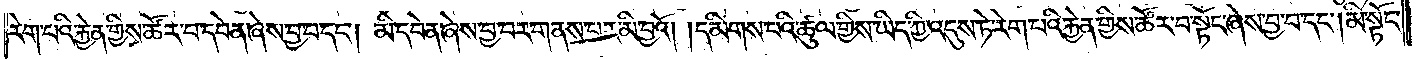རེག་པའི་རྐྱེན་གྱིས་ཚོར་བ་དབེན་ཞེས་བྱ་བ་དང༌། མི་དབེན་ཞེས་བྱ་བར་གནས་པར་མི་བྱའོ། །དམིགས་པའི་ཚུལ་གྱིས་ཡིད་ཀྱི་འདུས་ཏེ་རེག་པའི་རྐྱེན་གྱིས་ཚོར་བ་སྟོང་ཞེས་བྱ་བ་དང༌། མི་སྟོང་
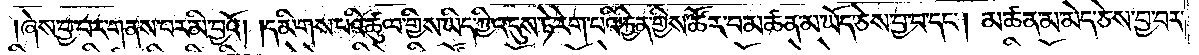ཞེས་བྱ་བར་གནས་པར་མི་བྱའོ། །དམིགས་པའི་ཚུལ་གྱིས་ཡིད་ཀྱི་འདུས་ཏེ་རེག་པའི་རྐྱེན་གྱིས་ཚོར་བ་མཚན་མ་ཡོད་ཅེས་བྱ་བ་དང༌། མཚན་མ་མེད་ཅེས་བྱ་བར་
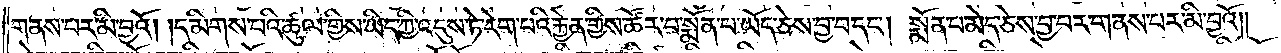གནས་པར་མི་བྱའོ། །དམིགས་པའི་ཚུལ་གྱིས་ཡིད་ཀྱི་འདུས་ཏེ་རེག་པའི་རྐྱེན་གྱིས་ཚོར་བ་སྨོན་པ་ཡོད་ཅེས་བྱ་བ་དང༌། སྨོན་པ་མེད་ཅེས་བྱ་བར་གནས་པར་མི་བྱའོ༎
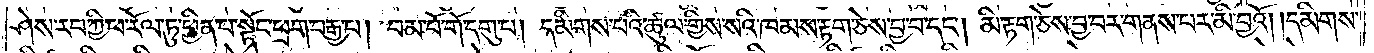ཤེས་རབ་ཀྱི་ཕ་རོལ་ཏུ་ཕྱིན་པ་སྟོང་ཕྲག་བརྒྱ་པ། །བམ་པོ་གོ་དགུ་པ། །དམིགས་པའི་ཚུལ་གྱིས་སའི་ཁམས་རྟག་ཅེས་བྱ་བ་དང༌། མི་རྟག་ཅེས་བྱ་བར་གནས་པར་མི་བྱའོ། །དམིགས་
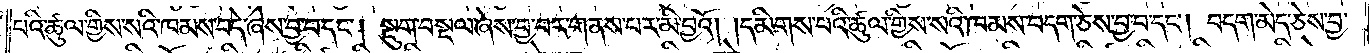པའི་ཚུལ་གྱིས་སའི་ཁམས་བདེ་ཞེས་བྱ་བ་དང༌། སྡུག་བསྔལ་ཞེས་བྱ་བར་གནས་པར་མི་བྱའོ། །དམིགས་པའི་ཚུལ་གྱིས་སའི་ཁམས་བདག་ཅེས་བྱ་བ་དང༌། བདག་མེད་ཅེས་བྱ་
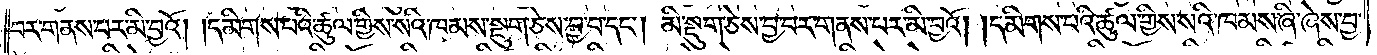བར་གནས་པར་མི་བྱའོ། །དམིགས་པའི་ཚུལ་གྱིས་སའི་ཁམས་སྡུག་ཅེས་བྱ་བ་དང༌། མི་སྡུག་ཅེས་བྱ་བར་གནས་པར་མི་བྱའོ། །དམིགས་པའི་ཚུལ་གྱིས་སའི་ཁམས་ཞི་ཞེས་བྱ་
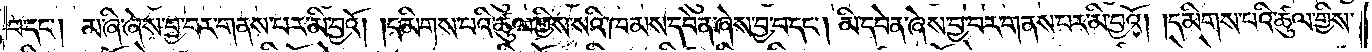བ་དང༌། མ་ཞི་ཞེས་བྱ་བར་གནས་པར་མི་བྱའོ། །དམིགས་པའི་ཚུལ་གྱིས་སའི་ཁམས་དབེན་ཞེས་བྱ་བ་དང༌། མི་དབེན་ཞེས་བྱ་བར་གནས་པར་མི་བྱའོ། །དམིགས་པའི་ཚུལ་གྱིས་
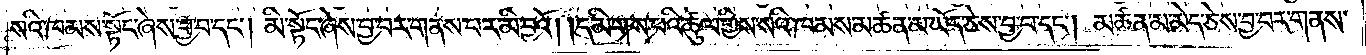སའི་ཁམས་སྟོང་ཞེས་བྱ་བ་དང༌། མི་སྟོང་ཞེས་བྱ་བར་གནས་པར་མི་བྱའོ། །དམིགས་པའི་ཚུལ་གྱིས་སའི་ཁམས་མཚན་མ་ཡོད་ཅེས་བྱ་བ་དང༌། མཚན་མ་མེད་ཅེས་བྱ་བར་གནས་
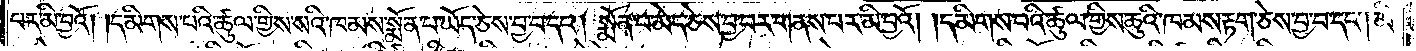པར་མི་བྱའོ། །དམིགས་པའི་ཚུལ་གྱིས་སའི་ཁམས་སྨོན་པ་ཡོད་ཅེས་བྱ་བ་དང༌། སྨོན་པ་མེད་ཅེས་བྱ་བར་གནས་པར་མི་བྱའོ། །དམིགས་པའི་ཚུལ་གྱིས་ཆུའི་ཁམས་རྟག་ཅེས་བྱ་བ་དང༌། མི་
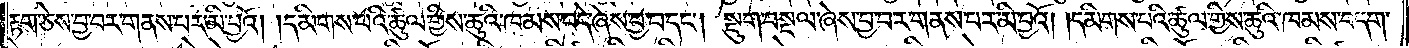རྟག་ཅེས་བྱ་བར་གནས་པར་མི་བྱའོ། །དམིགས་པའི་ཚུལ་གྱིས་ཆུའི་ཁམས་བདེ་ཞེས་བྱ་བ་དང༌། སྡུག་བསྔལ་ཞེས་བྱ་བར་གནས་པར་མི་བྱའོ། །དམིགས་པའི་ཚུལ་གྱིས་ཆུའི་ཁམས་བདག་
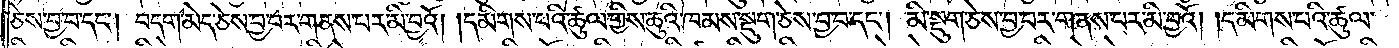ཅེས་བྱ་བ་དང༌། བདག་མེད་ཅེས་བྱ་བར་གནས་པར་མི་བྱའོ། །དམིགས་པའི་ཚུལ་གྱིས་ཆུའི་ཁམས་སྡུག་ཅེས་བྱ་བ་དང༌། མི་སྡུག་ཅེས་བྱ་བར་གནས་པར་མི་བྱའོ། །དམིགས་པའི་ཚུལ་
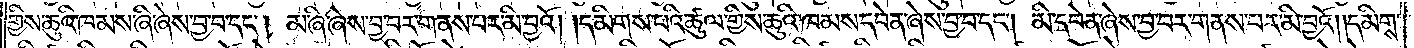གྱིས་ཆུའི་ཁམས་ཞི་ཞེས་བྱ་བ་དང༌། མ་ཞི་ཞེས་བྱ་བར་གནས་པར་མི་བྱའོ། །དམིགས་པའི་ཚུལ་གྱིས་ཆུའི་ཁམས་དབེན་ཞེས་བྱ་བ་དང༌། མི་དབེན་ཞེས་བྱ་བར་གནས་པར་མི་བྱའོ། །དམིགས་
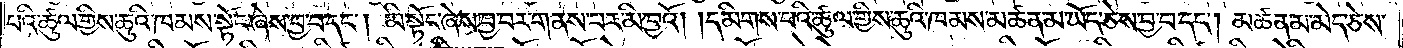པའི་ཚུལ་གྱིས་ཆུའི་ཁམས་སྟོང་ཞེས་བྱ་བ་དང༌། མི་སྟོང་ཞེས་བྱ་བར་གནས་པར་མི་བྱའོ། །དམིགས་པའི་ཚུལ་གྱིས་ཆུའི་ཁམས་མཚན་མ་ཡོད་ཅེས་བྱ་བ་དང༌། མཚན་མ་མེད་ཅེས་
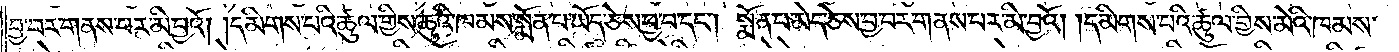བྱ་བར་གནས་པར་མི་བྱའོ། །དམིགས་པའི་ཚུལ་གྱིས་ཆུའི་ཁམས་སྨོན་པ་ཡོད་ཅེས་བྱ་བ་དང༌། སྨོན་པ་མེད་ཅེས་བྱ་བར་གནས་པར་མི་བྱའོ། །དམིགས་པའི་ཚུལ་གྱིས་མེའི་ཁམས་
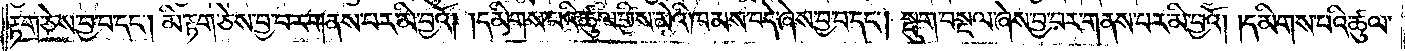རྟག་ཅེས་བྱ་བ་དང༌། མི་རྟག་ཅེས་བྱ་བར་གནས་པར་མི་བྱའོ། །དམིགས་པའི་ཚུལ་གྱིས་མེའི་ཁམས་བདེ་ཞེས་བྱ་བ་དང༌། སྡུག་བསྔལ་ཞེས་བྱ་བར་གནས་པར་མི་བྱའོ། །དམིགས་པའི་ཚུལ་
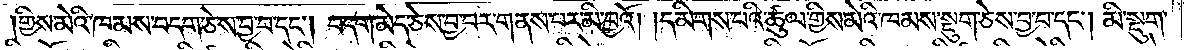གྱིས་མེའི་ཁམས་བདག་ཅེས་བྱ་བ་དང༌། བདག་མེད་ཅེས་བྱ་བར་གནས་པར་མི་བྱའོ། །དམིགས་པའི་ཚུལ་གྱིས་མེའི་ཁམས་སྡུག་ཅེས་བྱ་བ་དང༌། མི་སྡུག་
